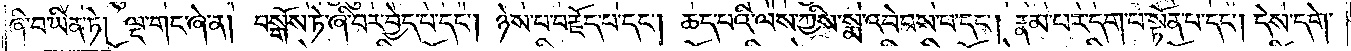ཞི་བ་ཡིན་ཏེ། ལྔ་གང་ཞེ་ན། བསྒོས་ཏེ་ཞི་བར་བྱེད་པ་དང༌། ཉེས་པ་བརྗོད་པ་དང༌། ཆད་པའི་ལས་ཀྱིས་སྨ་འབེབས་པ་དང༌། རྣམ་པར་དག་པ་སྟོན་པ་དང༌། དེས་དགེ་
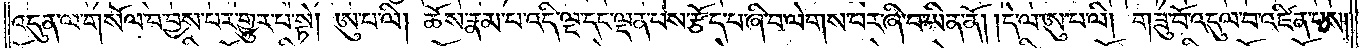འདུན་ལ་གསོལ་བ་བྱས་པར་གྱུར་པ་སྟེ། ཨུ་པ་ལི། ཆོས་རྣམ་པ་འདི་ལྔ་དང་ལྡན་པས་རྩོད་པ་ཞི་བ་ལེགས་པར་ཞི་བ་ཡིན་ནོ། །དེ་ལ་ཨུ་པ་ལི། གཟུ་བོ་འདུལ་བ་འཛིན་པས།
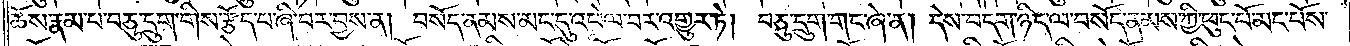ཆོས་རྣམ་པ་བཅུ་དྲུག་གིས་རྩོད་པ་ཞི་བར་བྱས་ན། བསོད་ནམས་མང་དུ་འཕེལ་བར་འགྱུར་ཏེ། བཅུ་དྲུག་གང་ཞེ་ན། དེས་བདག་ཉིད་ལ་བསོད་ནམས་ཀྱི་ཕུང་པོ་མང་པོས་
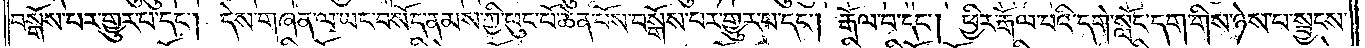བསྒོས་པར་གྱུར་པ་དང༌། དེས་གཞན་ལ་ཡང་བསོད་ནམས་ཀྱི་ཕུང་པོ་ཆེན་པོས་བསྒོས་པར་གྱུར་པ་དང༌། རྒོལ་བ་དང༌། ཕྱིར་རྒོལ་བའི་དགེ་སློང་དག་གིས་ཉེས་པ་སྦྱངས་
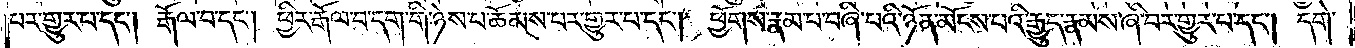པར་གྱུར་པ་དང༌། རྒོལ་བ་དང༌། ཕྱིར་རྒོལ་བ་དག་གི་ཉེས་པ་ཆོམས་པར་གྱུར་པ་དང༌། ཕྱོགས་རྣམ་པ་བཞི་པའི་ཉོན་མོངས་པའི་རྒྱུད་རྣམས་ཞི་བར་གྱུར་པ་དང༌། དགེ་
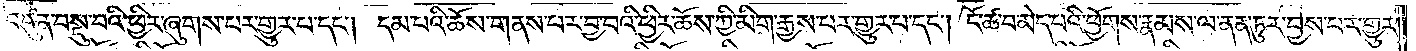འདུན་བསྡུ་བའི་ཕྱིར་ཞུགས་པར་གྱུར་པ་དང༌། དམ་པའི་ཆོས་གནས་པར་བྱ་བའི་ཕྱིར་ཆོས་ཀྱི་མིག་རྒྱས་པར་གྱུར་པ་དང༌། ངོ་ཚ་བ་མེད་པའི་ཕྱོགས་རྣམས་ལ་ནན་ཏུར་བྱས་པར་གྱུར་
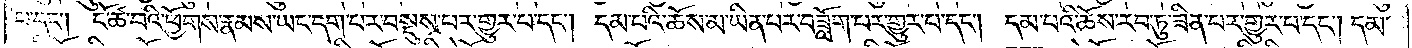བ་དང༌། ངོ་ཚ་བའི་ཕྱོགས་རྣམས་ཡང་དག་པར་བསྡུས་པར་གྱུར་པ་དང༌། དམ་པའི་ཆོས་མ་ཡིན་པར་བཟློག་པར་གྱུར་པ་དང༌། དམ་པའི་ཆོས་རབ་ཏུ་ཟིན་པར་གྱུར་པ་དང༌། དམ་
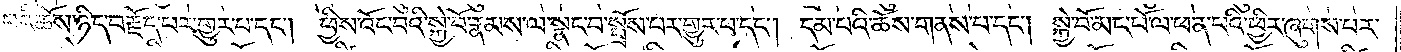པའི་ཆོས་ཉིད་བརྗོད་པར་གྱུར་པ་དང༌། ཕྱིས་འོང་བའི་སྐྱེ་བོ་རྣམས་ལ་སྣང་བ་སྤྲོས་པར་གྱུར་པ་དང༌། དམ་པའི་ཆོས་གནས་པ་དང༌། སྐྱེ་བོ་མང་པོ་ལ་ཕན་པའི་ཕྱིར་ཞུགས་པར་
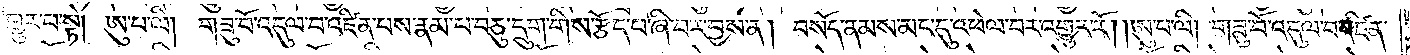གྱུར་པ་སྟེ། ཨུ་པ་ལི། གཟུ་བོ་འདུལ་བ་འཛིན་པས་རྣམ་པ་བཅུ་དྲུག་གིས་རྩོད་པ་ཞི་བར་བྱས་ན། བསོད་ནམས་མང་དུ་འཕེལ་བར་འགྱུར་རོ། །ཨུ་པ་ལི། གཟུ་བོ་འདུལ་བ་འཛིན་
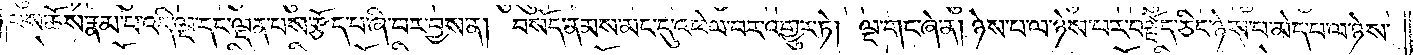པས་ཆོས་རྣམ་པ་འདི་ལྔ་དང་ལྡན་པས་རྩོད་པ་ཞི་བར་བྱས་ན། བསོད་ནམས་མང་དུ་འཕེལ་བར་འགྱུར་ཏེ། ལྔ་གང་ཞེ་ན། ཉེས་པ་ལ་ཉེས་པར་བརྗོད་ཅིང་ཉེས་པ་མེད་པ་ལ་ཉེས་
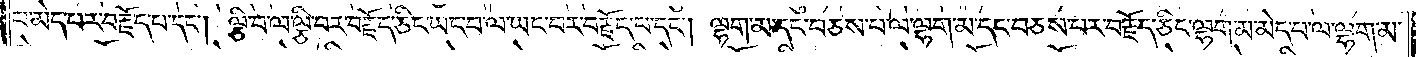པ་མེད་པར་བརྗོད་པ་དང༌། ལྕི་བ་ལ་ལྕི་བར་བརྗོད་ཅིང་ཡང་བ་ལ་ཡང་བར་བརྗོད་པ་དང༌། ལྷག་མ་དང་བཅས་པ་ལ་ལྷག་མ་དང་བཅས་པར་བརྗོད་ཅིང་ལྷག་མ་མེད་པ་ལ་ལྷག་མ་
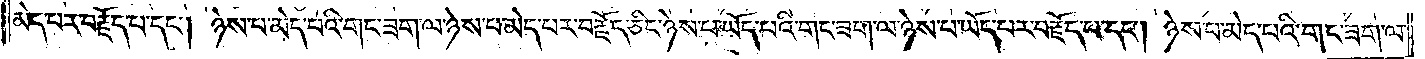མེད་པར་བརྗོད་པ་དང༌། ཉེས་པ་མེད་པའི་གང་ཟག་ལ་ཉེས་པ་མེད་པར་བརྗོད་ཅིང་ཉེས་པ་ཡོད་པའི་གང་ཟག་ལ་ཉེས་པ་ཡོད་པར་བརྗོད་པ་དང༌། ཉེས་པ་མེད་པའི་གང་ཟག་ལ་
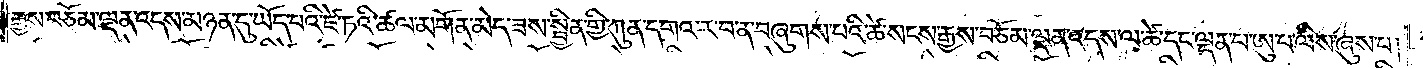རྒྱས་བཅོམ་ལྡན་འདས་མཉན་དུ་ཡོད་པའི་ཛེ་ཏའི་ཚལ་མགོན་མེད་ཟས་སྦྱིན་གྱི་ཀུན་དགའ་ར་བ་ན་བཞུགས་པའི་ཚེ་སངས་རྒྱས་བཅོམ་ལྡན་འདས་ལ་ཚེ་དང་ལྡན་པ་ཨུ་པ་ལིས་ཞུས་པ།
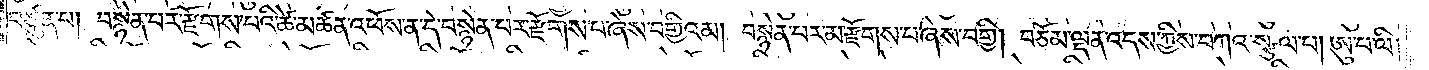བཙུན་པ། བསྙེན་པར་རྫོགས་པའི་ཚེ་མཚན་འཕོས་ན་དེ་བསྙེན་པར་རྫོགས་པ་ཞེས་བགྱིའམ། བསྙེན་པར་མ་རྫོགས་པ་ཞེས་བགྱི། བཅོམ་ལྡན་འདས་ཀྱིས་བཀའ་སྩལ་པ། ཨུ་པ་ལི།
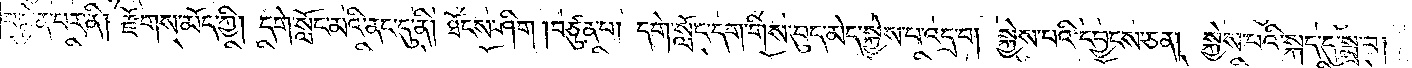བསྙེན་པར་ནི། རྫོགས་མོད་ཀྱི། དགེ་སློང་མའི་ནང་དུ་ནི། ཐོངས་ཤིག །བཙུན་པ། དགེ་སློང་དག་གིས་བུད་མེད་སྐྱེས་པ་འདྲ་བ། སྐྱེས་པའི་དབྱངས་ཅན། སྐྱེས་པའི་སྐད་དུ་སྨྲ་བ།
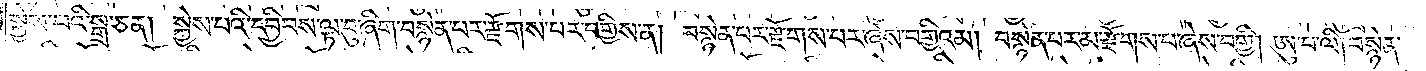སྐྱེས་པའི་སྒྲ་ཅན། སྐྱེས་པའི་དབྱིབས་ལྟ་བུ་ཞིག་བསྙེན་པར་རྫོགས་པར་བགྱིས་ན། བསྙེན་པར་རྫོགས་པར་ཞེས་བགྱིའམ། བསྙེན་པར་མ་རྫོགས་པ་ཞེས་བགྱི། ཨུ་པ་ལི། བསྙེན་
